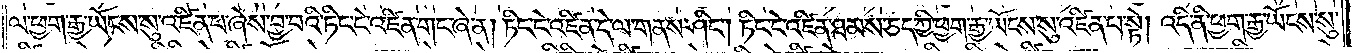ལ་ཕྱག་རྒྱ་ཡོངས་སུ་འཛིན་པ་ཞེས་བྱ་བའི་ཏིང་ངེ་འཛིན་གང་ཞེ་ན། ཏིང་ངེ་འཛིན་དེ་ལ་གནས་ཤིང༌། ཏིང་ངེ་འཛིན་ཐམས་ཅད་ཀྱི་ཕྱག་རྒྱ་ཡོངས་སུ་འཛིན་པ་སྟེ། འདི་ནི་ཕྱག་རྒྱ་ཡོངས་སུ་
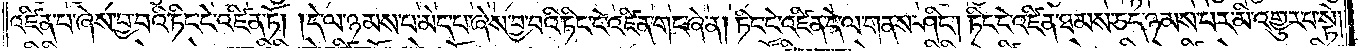འཛིན་པ་ཞེས་བྱ་བའི་ཏིང་ངེ་འཛིན་ཏོ། །དེ་ལ་ཉམས་པ་མེད་པ་ཞེས་བྱ་བའི་ཏིང་ངེ་འཛིན་གང་ཞེ་ན། ཏིང་ངེ་འཛིན་དེ་ལ་གནས་ཤིང༌། ཏིང་ངེ་འཛིན་ཐམས་ཅད་ཉམས་པར་མི་འགྱུར་བ་སྟེ།
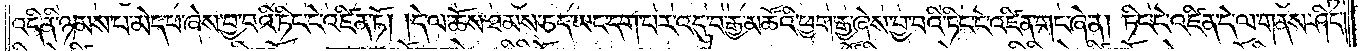འདི་ནི་ཉམས་པ་མེད་པ་ཞེས་བྱ་བའི་ཏིང་ངེ་འཛིན་ཏོ། །དེ་ལ་ཆོས་ཐམས་ཅད་ཡང་དག་པར་འདུ་བ་རྒྱ་མཚོའི་ཕྱག་རྒྱ་ཞེས་བྱ་བའི་ཏིང་ངེ་འཛིན་གང་ཞེ་ན། ཏིང་ངེ་འཛིན་དེ་ལ་གནས་ཤིང༌།
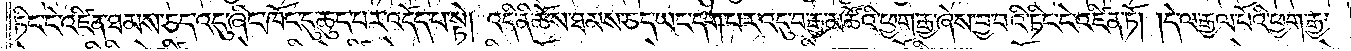ཏིང་ངེ་འཛིན་ཐམས་ཅད་འདུ་ཞིང་ཁོང་དུ་ཆུད་པར་འདོད་པ་སྟེ། འདི་ནི་ཆོས་ཐམས་ཅད་ཡང་དག་པར་འདུ་བ་རྒྱ་མཚོའི་ཕྱག་རྒྱ་ཞེས་བྱ་བའི་ཏིང་ངེ་འཛིན་ཏོ། །དེ་ལ་རྒྱལ་པོའི་ཕྱག་རྒྱ་
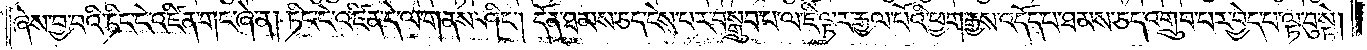ཞེས་བྱ་བའི་ཏིང་ངེ་འཛིན་གང་ཞེ་ན། ཏིང་ངེ་འཛིན་དེ་ལ་གནས་ཤིང༌། དོན་ཐམས་ཅད་ངེས་པར་བསྒྲུབ་པ་ལ་ཇི་ལྟར་རྒྱལ་པོའི་ཕྱག་རྒྱས་འདོད་པ་ཐམས་ཅད་འགྲུབ་པར་བྱེད་པ་ལྟ་བུ་སྟེ།
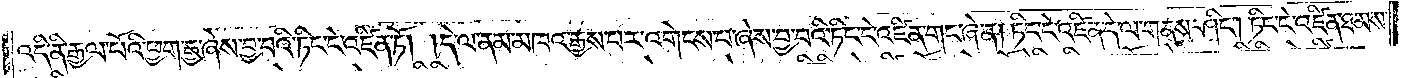འདི་ནི་རྒྱལ་པོའི་ཕྱག་རྒྱ་ཞེས་བྱ་བའི་ཏིང་ངེ་འཛིན་ཏོ། །དེ་ལ་ནམ་མཁའ་རྒྱས་པར་འགེངས་པ་ཞེས་བྱ་བའི་ཏིང་ངེ་འཛིན་གང་ཞེ་ན། ཏིང་ངེ་འཛིན་དེ་ལ་གནས་ཤིང༌། ཏིང་ངེ་འཛིན་ཐམས་
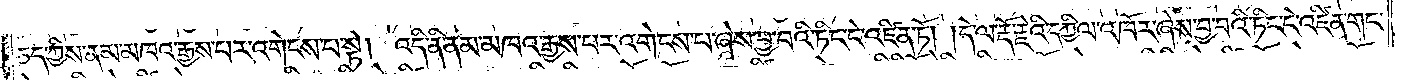ཅད་ཀྱིས་ནམ་མཁའ་རྒྱས་པར་འགེངས་པ་སྟེ། འདི་ནི་ནམ་མཁའ་རྒྱས་པར་འགེངས་པ་ཞེས་བྱ་བའི་ཏིང་ངེ་འཛིན་ཏོ། །དེ་ལ་རྡོ་རྗེའི་དཀྱིལ་འཁོར་ཞེས་བྱ་བའི་ཏིང་ངེ་འཛིན་གང་
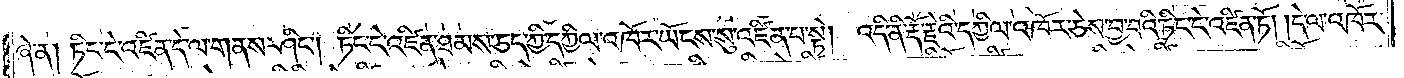ཞེ་ན། ཏིང་ངེ་འཛིན་དེ་ལ་གནས་ཤིང༌། ཏིང་ངེ་འཛིན་ཐམས་ཅད་ཀྱི་དཀྱིལ་འཁོར་ཡོངས་སུ་འཛིན་པ་སྟེ། འདི་ནི་རྡོ་རྗེའི་དཀྱིལ་འཁོར་ཅེས་བྱ་བའི་ཏིང་ངེ་འཛིན་ཏོ། །དེ་ལ་འཁོར་
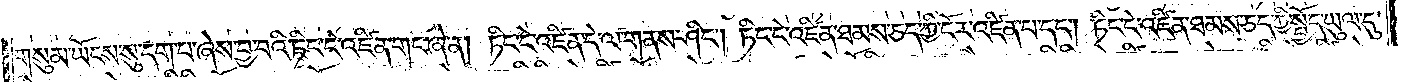གསུམ་ཡོངས་སུ་དག་པ་ཞེས་བྱ་བའི་ཏིང་ངེ་འཛིན་གང་ཞེ་ན། ཏིང་ངེ་འཛིན་དེ་ལ་གནས་ཤིང༌། ཏིང་ངེ་འཛིན་ཐམས་ཅད་ཀྱི་ངོར་འཛིན་པ་དང༌། ཏིང་ངེ་འཛིན་ཐམས་ཅད་ཀྱི་སྤྱོད་ཡུལ་དུ་
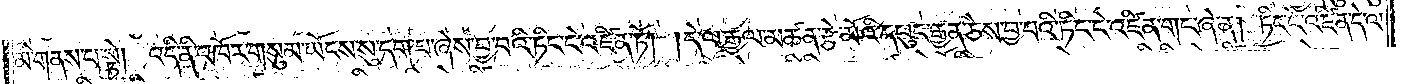མི་གནས་པ་སྟེ། འདི་ནི་འཁོར་གསུམ་ཡོངས་སུ་དག་པ་ཞེས་བྱ་བའི་ཏིང་ངེ་འཛིན་ཏོ། །དེ་ལ་རྒྱལ་མཚན་རྩེ་མོའི་དཔུང་རྒྱན་ཅེས་བྱ་བའི་ཏིང་ངེ་འཛིན་གང་ཞེ་ན། ཏིང་ངེ་འཛིན་དེ་ལ་
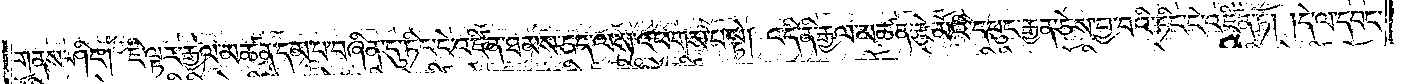གནས་ཤིང༌། ཇི་ལྟར་རྒྱལ་མཚན་དམ་པ་བཞིན་དུ་ཏིང་ངེ་འཛིན་ཐམས་ཅད་ལས་འཕགས་པ་སྟེ། འདི་ནི་རྒྱལ་མཚན་རྩེ་མོའི་དཔུང་རྒྱན་ཅེས་བྱ་བའི་ཏིང་ངེ་འཛིན་ཏོ། །དེ་ལ་དབང་
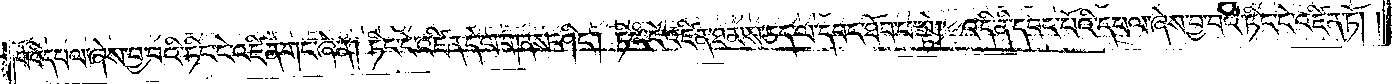པོའི་དཔལ་ཞེས་བྱ་བའི་ཏིང་ངེ་འཛིན་གང་ཞེ་ན། ཏིང་ངེ་འཛིན་དེ་ལ་གནས་ཤིང༌། ཏིང་ངེ་འཛིན་ཐམས་ཅད་ལ་དབང་ཐོབ་པ་སྟེ། འདི་ནི་དབང་པོའི་དཔལ་ཞེས་བྱ་བའི་ཏིང་ངེ་འཛིན་ཏོ། །
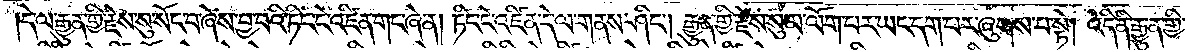དེ་ལ་རྒྱུན་གྱི་རྗེས་སུ་སོང་བ་ཞེས་བྱ་བའི་ཏིང་ངེ་འཛིན་གང་ཞེ་ན། ཏིང་ངེ་འཛིན་དེ་ལ་གནས་ཤིང༌། རྒྱུན་གྱི་རྗེས་སུ་མ་ལོག་པར་ཡང་དག་པར་ཞུགས་པ་སྟེ། འདི་ནི་རྒྱུན་གྱི་
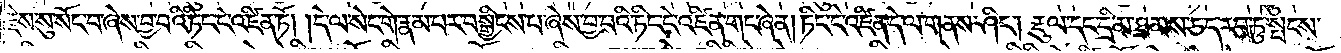རྗེས་སུ་སོང་བ་ཞེས་བྱ་བའི་ཏིང་ངེ་འཛིན་ཏོ། །དེ་ལ་སེང་གེ་རྣམ་པར་བསྒྱིངས་པ་ཞེས་བྱ་བའི་ཏིང་ངེ་འཛིན་གང་ཞེ་ན། ཏིང་ངེ་འཛིན་དེ་ལ་གནས་ཤིང༌། རྡུལ་དང་དྲི་མ་ཐམས་ཅད་རབ་ཏུ་སྤངས་
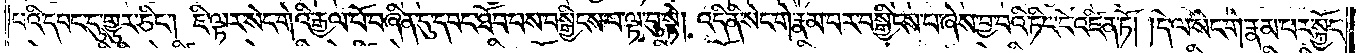པའི་དབང་དུ་གྱུར་ཅིང༌། ཇི་ལྟར་སེང་གེའི་རྒྱལ་པོ་བཞིན་དུ་དབང་ཐོབ་པས་བསྒྱིངས་པ་ལྟ་བུ་སྟེ། འདི་ནི་སེང་གེ་རྣམ་པར་བསྒྱིངས་པ་ཞེས་བྱ་བའི་ཏིང་ངེ་འཛིན་ཏོ། །དེ་ལ་སེང་གེ་རྣམ་པར་སྐྱོང་
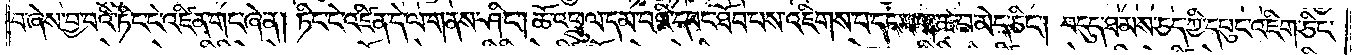བ་ཞེས་བྱ་བའི་ཏིང་ངེ་འཛིན་གང་ཞེ་ན། ཏིང་ངེ་འཛིན་དེ་ལ་གནས་ཤིང༌། ཆོ་འཕྲུལ་དམ་པའི་དབང་ཐོབ་པས་འཇིགས་པ་དང་བག་ཚ་བ་མེད་ཅིང༌། བདུད་ཐམས་ཅད་ཀྱི་དཔུང་འཇིག་ཅིང་
